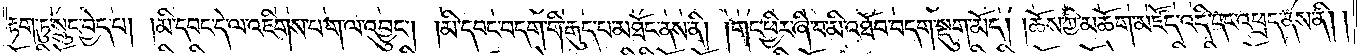རྟག་ཏུ་སྲུང་བྱེད་པ། །མི་དབང་དེ་ལ་འཇིགས་པ་ག་ལ་འབྱུང༌། །མི་དབང་བདག་གི་རྒྱུད་པ་མཐོང་ནས་ནི། །གང་ཕྱིར་ཞི་བ་མི་འཐོབ་བདག་སྡུག་མོད། །ཆོས་ཀྱི་མཆོག་མཛོད་འདི་དང་འཕྲད་ནས་ནི། །
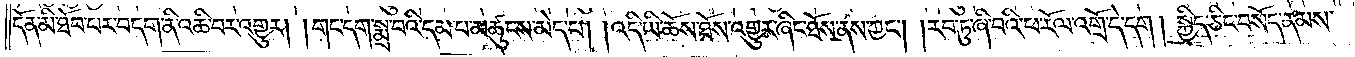དོན་མི་ཐོབ་པར་བདག་ནི་འཆི་བར་འགྱུར། །གང་དག་སྨྲ་བའི་དམ་པ་མཚུངས་མེད་པ། །འདི་ཡི་ཆོས་ཐོས་འགྱུར་ཞིང་ཐོས་ནས་ཀྱང༌། །རབ་ཏུ་ཞི་བའི་ཕ་རོལ་འགྲོ་དེ་དག །སྐྱེད་ཅིང་བསོད་ནམས་
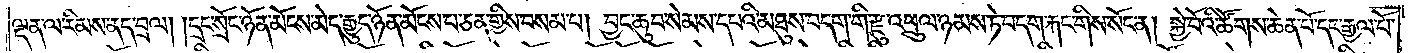ལྡན་ལ་རིམས་ནད་བྲལ། །དྲང་སྲོང་ཉོན་མོངས་མེད་རྒྱུད་ཉོན་མོངས་པ་ཅན་གྱིས་བསམ་པ། བྱང་ཆུབ་སེམས་དཔའི་མཐུས་བདག་གི་རྫུ་འཕྲུལ་ཉམས་ཏེ་བདག་རྐང་གིས་སོང་ནས། སྐྱེ་བོའི་ཚོགས་ཆེན་པོ་དང་རྒྱལ་པོ་
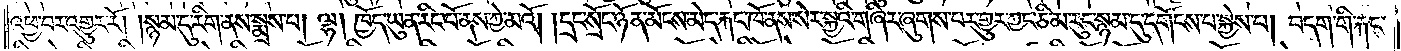འཕྱ་བར་འགྱུར་རོ། །སྙམ་དུ་རིག་ནས་སྨྲས་པ། ལྷ། ཁྱོད་ཡུན་རིང་པོ་ནས་ཀྱེ་མའོ། །དྲང་སྲོང་ཉོན་མོངས་མེད་རྐང་ཁོ་ནས་སེར་སྐྱའི་གཞིར་ཞུགས་པར་གྱུར་ཀྱང་ཅི་མ་རུང་སྙམ་དུ་དགོངས་པ་སྐྱེས་པ། བདག་གི་རྐང་
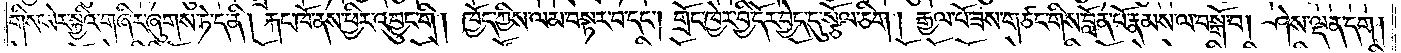གིས་སེར་སྐྱའི་གཞིར་ཞུགས་ཏེ་ད་ནི། རྐང་ཁོ་ནས་ཕྱིར་འབྱུང་གི །ཁྱོད་ཀྱིས་ལམ་བསྟར་བ་དང༌། གྲོང་ཁྱེར་བྱི་དོར་བྱེད་དུ་སྩོལ་ཅིག །རྒྱལ་པོ་ཟས་གཙང་གིས་བློན་པོ་རྣམས་ལ་བསྒོ་བ། ཤེས་ལྡན་དག །
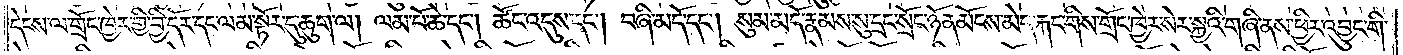དེངས་ལ་གྲོང་ཁྱེར་གྱི་བྱི་དོར་དང་ལམ་སྟོར་དུ་ཆུག་ལ། ལམ་པོ་ཆེ་དང༌། ཚོང་འདུས་དང༌། བཞི་མདོ་དང༌། སུམ་མདོ་རྣམས་སུ་དྲང་སྲོང་ཉོན་མོངས་མེད་རྐང་གིས་གྲོང་ཁྱེར་སེར་སྐྱའི་གཞི་ནས་ཕྱིར་འབྱུང་གི་
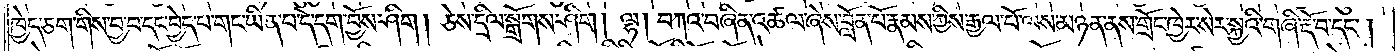ཁྱེད་ཅག་གིས་བྱ་བ་དང་བྱེད་པ་གང་ཡིན་པ་དེ་དག་བྱོས་ཤིག །ཅེས་དྲིལ་སྒྲོགས་ཤིག །ལྷ། བཀའ་བཞིན་འཚལ་ཞེས་བློན་པོ་རྣམས་ཀྱིས་རྒྱལ་པོ་ལས་མཉན་ནས་གྲོང་ཁྱེར་སེར་སྐྱའི་གཞི་རྡོ་བ་དང༌།
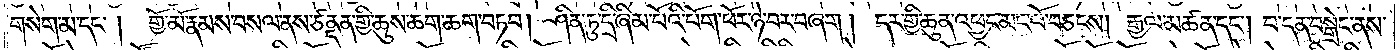གསེག་མ་དང༌། གྱོ་མོ་རྣམས་བསལ་ནས་ཙནྡན་གྱི་ཆུས་ཆག་ཆག་བཏབ། ཤིན་ཏུ་དྲི་ཞིམ་པོའི་པོག་ཕོར་ཉེ་བར་བཞག །དར་གྱི་ཆུན་འཕྱང་མང་པོ་བཅངས། རྒྱལ་མཚན་དང༌། བ་དན་བསྒྲེང་ནས་
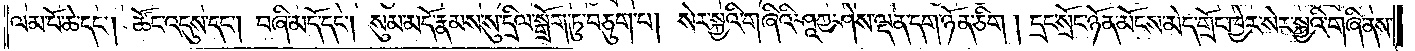ལམ་པོ་ཆེ་དང༌། ཚོང་འདུས་དང༌། བཞི་མདོ་དང༌། སུམ་མདོ་རྣམས་སུ་དྲིལ་སྒྲོག་ཏུ་བཅུག་པ། སེར་སྐྱའི་གཞིའི་ཤཱཀྱ་ཤེས་ལྡན་དག་ཉོན་ཅིག །དྲང་སྲོང་ཉོན་མོངས་མེད་གྲོང་ཁྱེར་སེར་སྐྱའི་གཞི་ནས་
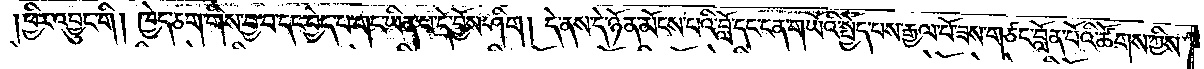ཕྱིར་འབྱུང་གི། ཁྱེད་ཅག་གིས་བྱ་བ་དང་བྱེད་པ་གང་ཡིན་པ་དེ་བྱོས་ཤིག། དེ་ནས་དེ་ཉོན་མོངས་པའི་བློ་དང་ངན་གཡོའི་སྤྱོད་པས་རྒྱལ་པོ་ཟས་གཙང་བློན་པོའི་ཚོགས་ཀྱིས་
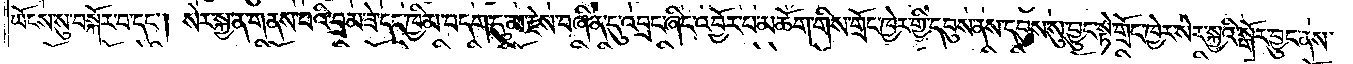ཡོངས་སུ་བསྐོར་བ་དང༌། སེར་སྐྱ་ན་གནས་པའི་བྲམ་ཟེ་དང་ཁྱིམ་བདག་དུ་མ་རྗེས་བཞིན་དུ་འབྲང་ཞིང་འབྱོར་པ་མཆོག་གིས་གྲོང་ཁྱེར་གྱི་དབུས་ནས་དབུས་སུ་བྱུང་སྟེ་གྲོང་ཁྱེར་སེར་སྐྱའི་སྒོར་བྱུང་ནས་
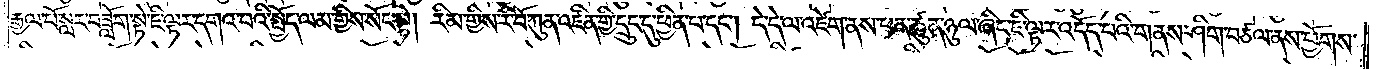རྒྱལ་པོ་སླར་བཟློག་སྟེ་ཇི་ལྟར་དགའ་བའི་སྤྱོད་ལམ་གྱིས་སོང་སྟེ། རིམ་གྱིས་རི་བོ་ཀུན་འཛིན་གྱི་དྲུང་དུ་ཕྱིན་པ་དང༌། དེ་དེ་ལ་འཛེག་ནས་ཕན་ཚུན་ཉུལ་ཞིང་ཇི་ལྟར་འདོད་པའི་གནས་ཤིག་བཙལ་ནས་ཕྱོགས་
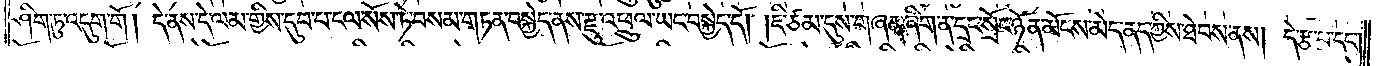ཤིག་ཏུ་འདུག་གོ། དེ་ནས་དེ་ལམ་གྱིས་དུབ་པ་ངལ་སོས་ཏེ་བསམ་གཏན་བསྐྱེད་ནས་རྫུ་འཕྲུལ་ཡང་བསྐྱེད་དོ། །ཇི་ཙམ་དུས་གཞན་ཞིག་ན་དྲང་སྲོང་ཉོན་མོངས་མེད་ནད་ཀྱིས་ཐེབས་ནས། དེ་རྩ་བ་དང༌།
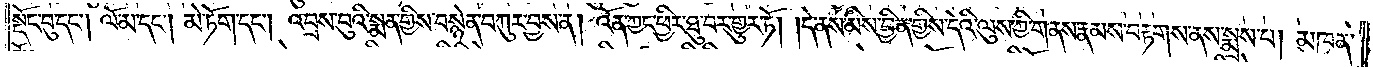སྡོང་བུ་དང༌། ལོ་མ་དང༌། མེ་ཏོག་དང༌། འབྲས་བུའི་སྨན་གྱིས་བསྙེན་བཀུར་བྱས་ན། འོན་ཀྱང་ཕྱིར་ཐུ་བར་གྱུར་ཏོ། །དེ་ནས་མིས་བྱིན་གྱིས་དེའི་ལུས་ཀྱི་གནས་རྣམས་བརྟགས་ནས་སྨྲས་པ། མཁན་
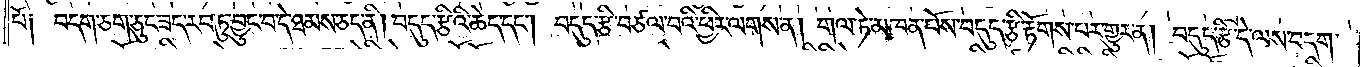པོ༑ བདག་ཅག་ཅུང་ཟད་རབ་ཏུ་བྱུང་བ་དེ་ཐམས་ཅད་ནི། བདུད་རྩིའི་ཆེད་དང༌། བདུད་རྩི་བཙལ་བའི་ཕྱིར་ལགས་ན། གལ་ཏེ་མཁན་པོས་བདུད་རྩི་རྟོགས་པར་གྱུར་ན། བདུད་རྩི་དེ་ལས་བདག་
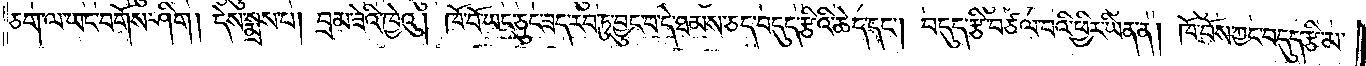ཅག་ལ་ཡང་བགོས་ཤིག །དེས་སྨྲས་པ། བྲམ་ཟེའི་ཁྱེའུ། ཁོ་བོ་ཡང་ཅུང་ཟད་རབ་ཏུ་བྱུང་བ་དེ་ཐམས་ཅད་བདུད་རྩིའི་ཆེད་དང༌། བདུད་རྩི་བཙལ་བའི་ཕྱིར་ཡིན་ན། ཁོ་བོས་ཀྱང་བདུད་རྩི་མ་
